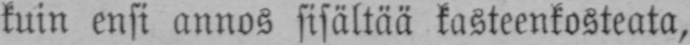kuin ensi annos sisältää kasteenkosteata,
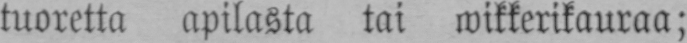tuoretta apilasta tai wikkerikauraa;
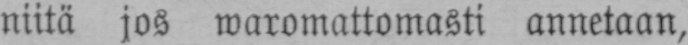niitä jos waromattomasti annetaan,
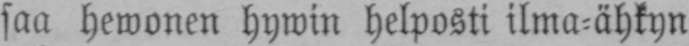saa hewonen hywin helposti ilma-ähkyn
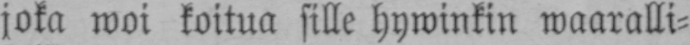joka woi koitua sille hywinkin waaralli-
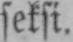seksi.
